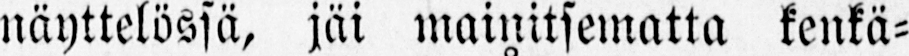näyttelössä, jäi mainitsematta kenkä-
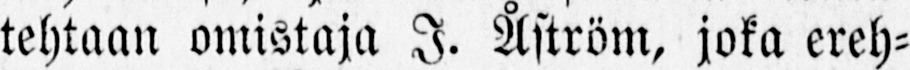tehtaan omistaja I. Åström, joka ereh-
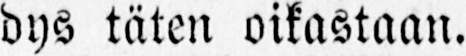dys täten oikastaan.
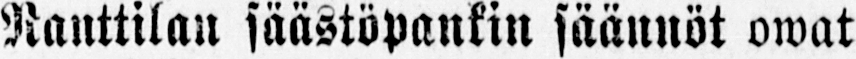Nauttilan säästöpankin säännöt owat
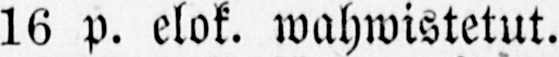16 p. elok. wahwistetut.
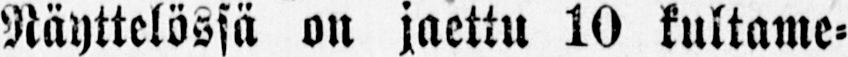Näyttelössä on jaettu 10 kultame-
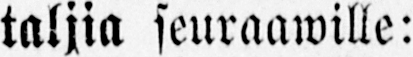taljia seuraawille:
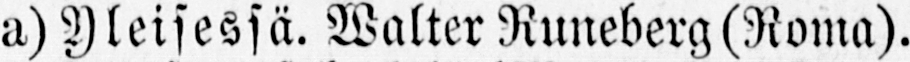a) Yleisessä. Walter Runeberg (Roma).
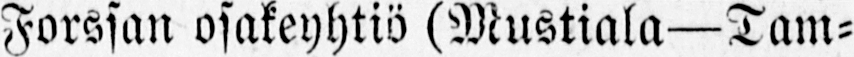Forssan osakeyhtiö (Mustiala —Tam-
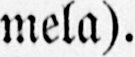mela).
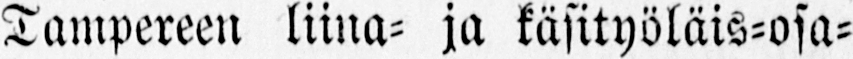Tampereen liina- ja käsityöläis-osa-
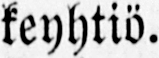keyhtiö.
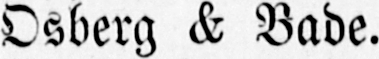Osberg & Bade.
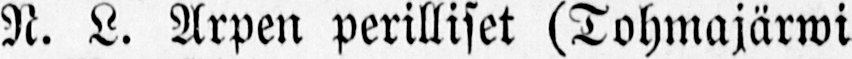N. L. Arpen perilliset (Tohmajärwi
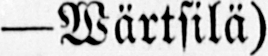— Wärtsilä)
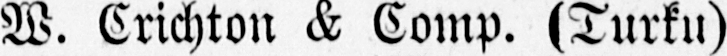W. Crichton & Comp. (Turku)
